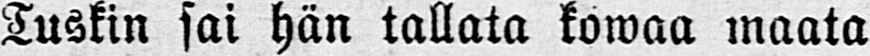Tuskin sai hän tallata kowaa maata
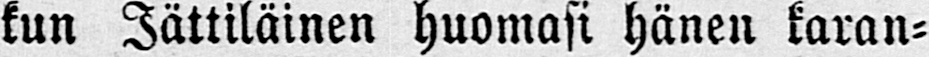kun Jättiläinen huomasi hänen karan-
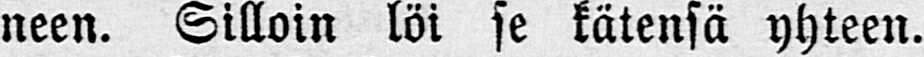neen. Silloin löi se kätensä yhteen.
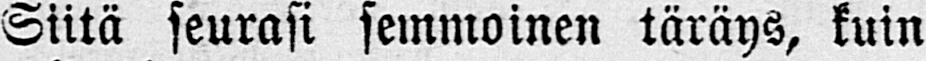Siitä seurasi semmoinen täräys, kuin
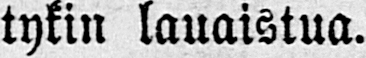tykin lauaistua.
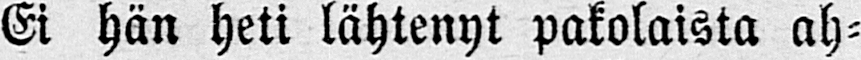Ei hän heti lähtenyt pakolaista ah-
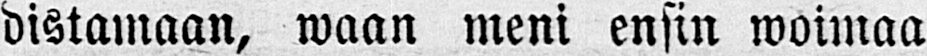distamaan, waan meni ensin woimaa
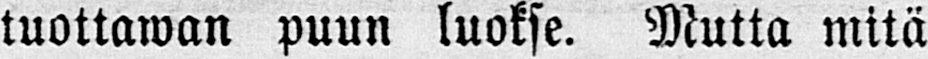tuottawan puun luokse. Mutta mitä
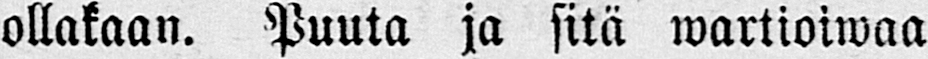ollakaan. Puuta ja sitä wartioiwaa
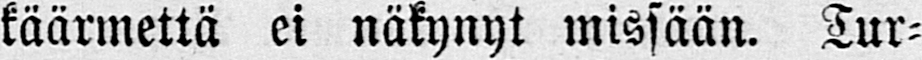käärmettä ei näkynyt missään. Tur-
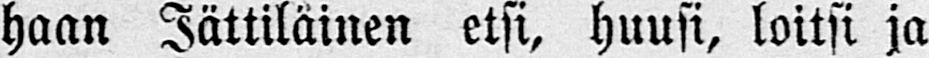haan Jättiläinen etsi, huusi, loitsi ja
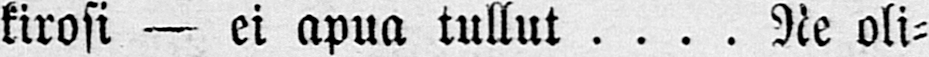kirosi — ei apua tullut .... Ne oli-
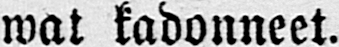wat kadonneet.
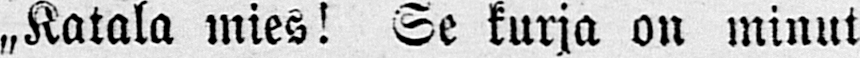„Katala mies! Se kurja on minut
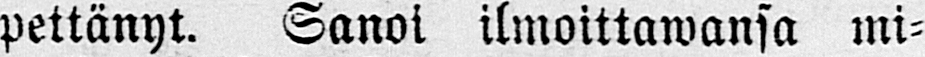pettänyt. Sanoi ilmoittawansa mi-
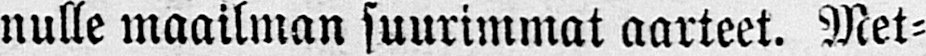nulle maailman suurimmat aarteet. Met-
